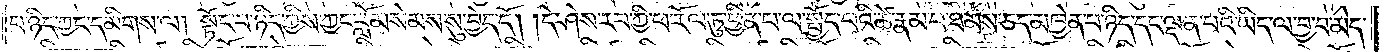པ་ཉིད་ཀྱང་དམིགས་ལ། སྟོང་པ་ཉིད་ཀྱིས་ཀྱང་རློམ་སེམས་སུ་བྱེད་དོ། །དེ་ཤེས་རབ་ཀྱི་ཕ་རོལ་ཏུ་ཕྱིན་པ་ལ་སྤྱོད་པའི་ཚེ་རྣམ་པ་ཐམས་ཅད་མཁྱེན་པ་ཉིད་དང་ལྡན་པའི་ཡིད་ལ་བྱ་བ་མེད་
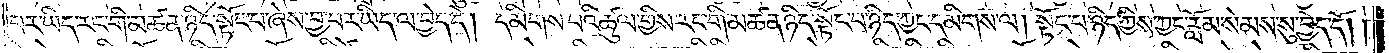པར་ཡིད་རང་གི་མཚན་ཉིད་སྟོང་པ་ཞེས་བྱ་བར་ཡིད་ལ་བྱེད་དེ། དམིགས་པའི་ཚུལ་གྱིས་རང་གི་མཚན་ཉིད་སྟོང་པ་ཉིད་ཀྱང་དམིགས་ལ། སྟོང་པ་ཉིད་ཀྱིས་ཀྱང་རློམ་སེམས་སུ་བྱེད་དོ། །
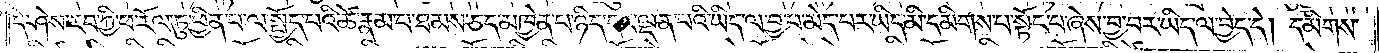དེ་ཤེས་རབ་ཀྱི་ཕ་རོལ་ཏུ་ཕྱིན་པ་ལ་སྤྱོད་པའི་ཚེ་རྣམ་པ་ཐམས་ཅད་མཁྱེན་པ་ཉིད་དང་ལྡན་པའི་ཡིད་ལ་བྱ་བ་མེད་པར་ཡིད་མི་དམིགས་པ་སྟོང་པ་ཞེས་བྱ་བར་ཡིད་ལ་བྱེད་དེ། དམིགས་
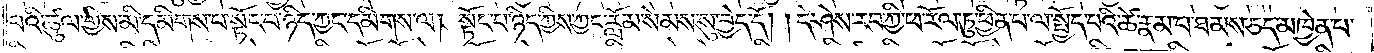པའི་ཚུལ་གྱིས་མི་དམིགས་པ་སྟོང་པ་ཉིད་ཀྱང་དམིགས་ལ། སྟོང་པ་ཉིད་ཀྱིས་ཀྱང་རློམ་སེམས་སུ་བྱེད་དོ། །དེ་ཤེས་རབ་ཀྱི་ཕ་རོལ་ཏུ་ཕྱིན་པ་ལ་སྤྱོད་པའི་ཚེ་རྣམ་པ་ཐམས་ཅད་མཁྱེན་པ་
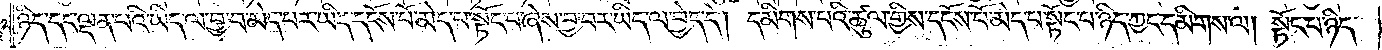ཉིད་དང་ལྡན་པའི་ཡིད་ལ་བྱ་བ་མེད་པར་ཡིད་དངོས་པོ་མེད་པ་སྟོང་པ་ཞེས་བྱ་བར་ཡིད་ལ་བྱེད་དེ། དམིགས་པའི་ཚུལ་གྱིས་དངོས་པོ་མེད་པ་སྟོང་པ་ཉིད་ཀྱང་དམིགས་ལ། སྟོང་པ་ཉིད་
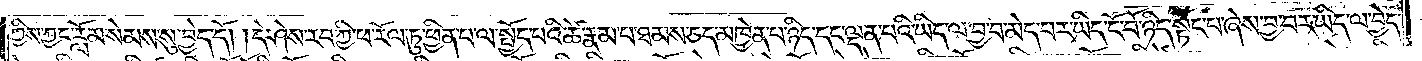ཀྱིས་ཀྱང་རློམ་སེམས་སུ་བྱེད་དོ། །དེ་ཤེས་རབ་ཀྱི་ཕ་རོལ་ཏུ་ཕྱིན་པ་ལ་སྤྱོད་པའི་ཚེ་རྣམ་པ་ཐམས་ཅད་མཁྱེན་པ་ཉིད་དང་ལྡན་པའི་ཡིད་ལ་བྱ་བ་མེད་པར་ཡིད་ངོ་བོ་ཉིད་སྟོང་པ་ཞེས་བྱ་བར་ཡིད་ལ་བྱེད་
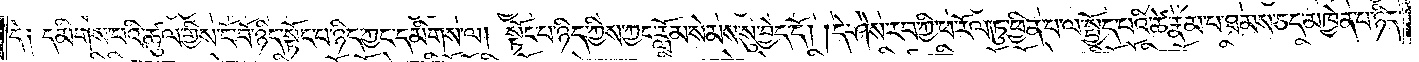དེ༑ དམིགས་པའི་ཚུལ་གྱིས་ངོ་བོ་ཉིད་སྟོང་པ་ཉིད་ཀྱང་དམིགས་ལ། སྟོང་པ་ཉིད་ཀྱིས་ཀྱང་རློམ་སེམས་སུ་བྱེད་དོ། །དེ་ཤེས་རབ་ཀྱི་ཕ་རོལ་ཏུ་ཕྱིན་པ་ལ་སྤྱོད་པའི་ཚེ་རྣམ་པ་ཐམས་ཅད་མཁྱེན་པ་ཉིད་
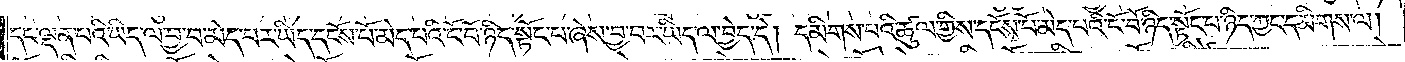དང་ལྡན་པའི་ཡིད་ལ་བྱ་བ་མེད་པར་ཡིད་དངོས་པོ་མེད་པའི་ངོ་བོ་ཉིད་སྟོང་པ་ཞེས་བྱ་བར་ཡིད་ལ་བྱེད་དེ། དམིགས་པའི་ཚུལ་གྱིས་དངོས་པོ་མེད་པའི་ངོ་བོ་ཉིད་སྟོང་པ་ཉིད་ཀྱང་དམིགས་ལ།
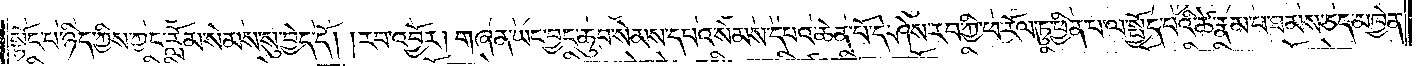སྟོང་པ་ཉིད་ཀྱིས་ཀྱང་རློམ་སེམས་སུ་བྱེད་དོ། །རབ་འབྱོར། གཞན་ཡང་བྱང་ཆུབ་སེམས་དཔའ་སེམས་དཔའ་ཆེན་པོ་དེ་ཤེས་རབ་ཀྱི་ཕ་རོལ་ཏུ་ཕྱིན་པ་ལ་སྤྱོད་པའི་ཚེ་རྣམ་པ་ཐམས་ཅད་མཁྱེན་
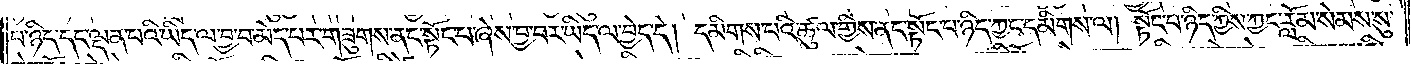པ་ཉིད་དང་ལྡན་པའི་ཡིད་ལ་བྱ་བ་མེད་པར་གཟུགས་ནང་སྟོང་པ་ཞེས་བྱ་བར་ཡིད་ལ་བྱེད་དེ། དམིགས་པའི་ཚུལ་གྱིས་ནང་སྟོང་པ་ཉིད་ཀྱང་དམིགས་ལ། སྟོང་པ་ཉིད་ཀྱིས་ཀྱང་རློམ་སེམས་སུ་
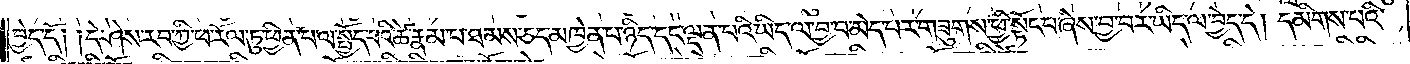བྱེད་དོ༑ ༑དེ་ཤེས་རབ་ཀྱི་ཕ་རོལ་ཏུ་ཕྱིན་པ་ལ་སྤྱོད་པའི་ཚེ་རྣམ་པ་ཐམས་ཅད་མཁྱེན་པ་ཉིད་དང་ལྡན་པའི་ཡིད་ལ་བྱ་བ་མེད་པར་གཟུགས་ཕྱི་སྟོང་པ་ཞེས་བྱ་བར་ཡིད་ལ་བྱེད་དེ། དམིགས་པའི་
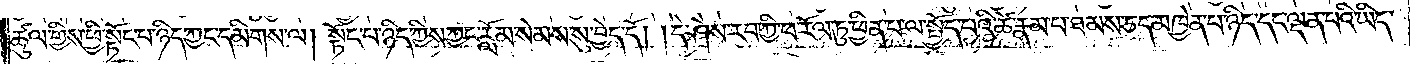ཚུལ་གྱིས་ཕྱི་སྟོང་པ་ཉིད་ཀྱང་དམིགས་ལ། སྟོང་པ་ཉིད་ཀྱིས་ཀྱང་རློམ་སེམས་སུ་བྱེད་དོ། །དེ་ཤེས་རབ་ཀྱི་ཕ་རོལ་ཏུ་ཕྱིན་པ་ལ་སྤྱོད་པའི་ཚེ་རྣམ་པ་ཐམས་ཅད་མཁྱེན་པ་ཉིད་དང་ལྡན་པའི་ཡིད་
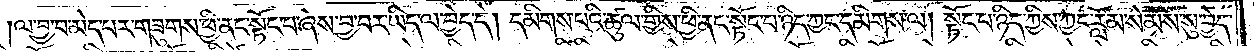ལ་བྱ་བ་མེད་པར་གཟུགས་ཕྱི་ནང་སྟོང་པ་ཞེས་བྱ་བར་ཡིད་ལ་བྱེད་དེ། དམིགས་པའི་ཚུལ་གྱིས་ཕྱི་ནང་སྟོང་པ་ཉིད་ཀྱང་དམིགས་ལ། སྟོང་པ་ཉིད་ཀྱིས་ཀྱང་རློམ་སེམས་སུ་བྱེད་
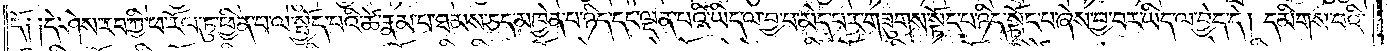དོ༑ ༑དེ་ཤེས་རབ་ཀྱི་ཕ་རོལ་ཏུ་ཕྱིན་པ་ལ་སྤྱོད་པའི་ཚེ་རྣམ་པ་ཐམས་ཅད་མཁྱེན་པ་ཉིད་དང་ལྡན་པའི་ཡིད་ལ་བྱ་བ་མེད་པར་གཟུགས་སྟོང་པ་ཉིད་སྟོང་པ་ཞེས་བྱ་བར་ཡིད་ལ་བྱེད་དེ། དམིགས་པའི་
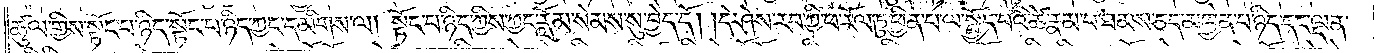ཚུལ་གྱིས་སྟོང་པ་ཉིད་སྟོང་པ་ཉིད་ཀྱང་དམིགས་ལ། སྟོང་པ་ཉིད་ཀྱིས་ཀྱང་རློམ་སེམས་སུ་བྱེད་དོ། །དེ་ཤེས་རབ་ཀྱི་ཕ་རོལ་ཏུ་ཕྱིན་པ་ལ་སྤྱོད་པའི་ཚེ་རྣམ་པ་ཐམས་ཅད་མཁྱེན་པ་ཉིད་དང་ལྡན་
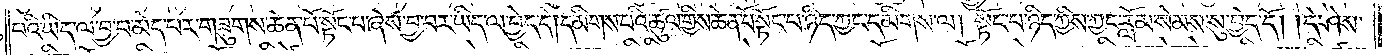པའི་ཡིད་ལ་བྱ་བ་མེད་པར་གཟུགས་ཆེན་པོ་སྟོང་པ་ཞེས་བྱ་བར་ཡིད་ལ་བྱེད་དེ། དམིགས་པའི་ཚུལ་གྱིས་ཆེན་པོ་སྟོང་པ་ཉིད་ཀྱང་དམིགས་ལ། སྟོང་པ་ཉིད་ཀྱིས་ཀྱང་རློམ་སེམས་སུ་བྱེད་དོ། །དེ་ཤེས་
